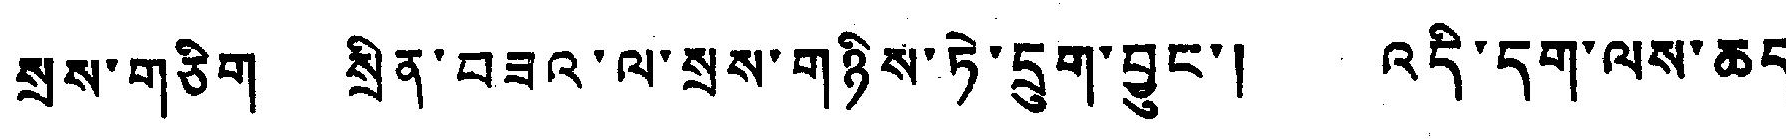སྲས་གཅིག སྲིན་བཟའ་ལ་སྲས་གཉིས་ཏེ་དྲུག་བྱུང་། འདི་དག་ལས་ཆད་
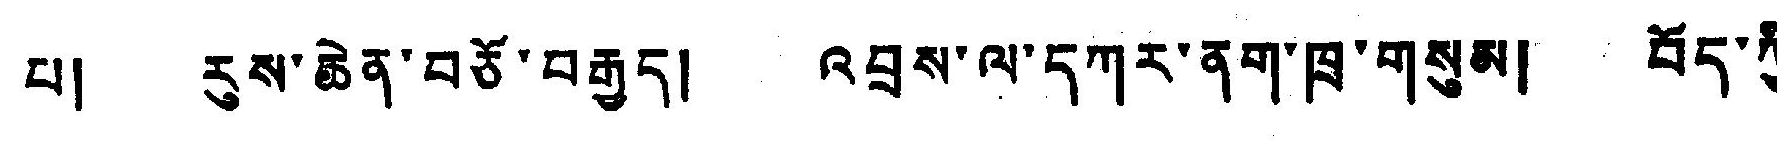པ། རུས་ཆེན་བཅོ་བརྒྱད། འབྲས་ལ་དཀར་ནག་ཁྲ་གསུམ། བོད་ཀྱི་
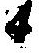4
